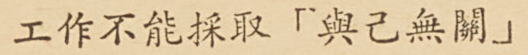工作不能採取「與己無關」
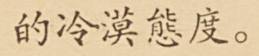的冷漠態度。
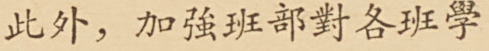此外，加強班部對各班學
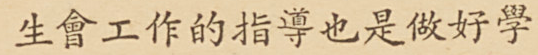生會工作的指導也是做好學
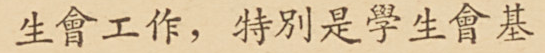生會工作，特別是學生會基
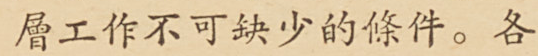層工作不可缺少的條件。各
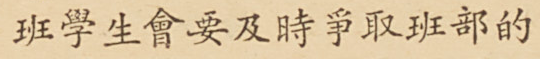班學生會要及時爭取班部的
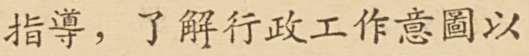指導，了解行政工作意圖以
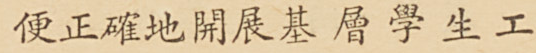便正確地開展及曾學生工
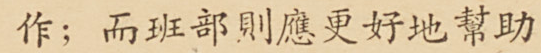作；而班部則應更好地幫助
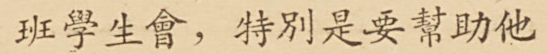班學生會，特別是要幫助他
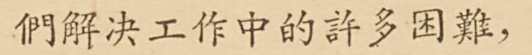們解決工作中的許多困難，
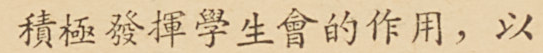積極發揮學生會的作用，以
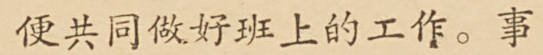便共同做好班上的工作。事
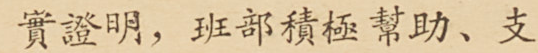實證明，班部積極幫助、支
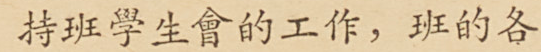持班學生會的工作，班的各
